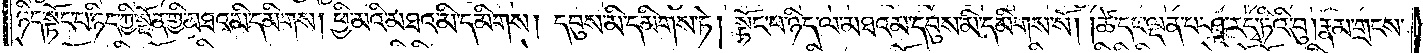ཉིད་སྟོང་པ་ཉིད་ཀྱི་སྔོན་གྱི་མཐའ་མི་དམིགས། ཕྱི་མའི་མཐའ་མི་དམིགས། དབུས་མི་དམིགས་ཏེ། སྟོང་པ་ཉིད་ལ་མཐའམ་དབུས་མི་དམིགས་སོ། །ཚེ་དང་ལྡན་པ་ཤཱ་ར་དྭ་ཏིའི་བུ། རྣམ་གྲངས་
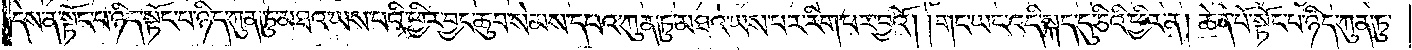དེས་ན་སྟོང་པ་ཉིད་སྟོང་པ་ཉིད་ཀུན་ཏུ་མཐའ་ཡས་པའི་ཕྱིར་བྱང་ཆུབ་སེམས་དཔའ་ཀུན་ཏུ་མཐའ་ཡས་པར་རིག་པར་བྱའོ། །གང་ཡང་འདི་སྐད་དུ་ཅིའི་ཕྱིར་ན། ཆེན་པོ་སྟོང་པ་ཉིད་ཀུན་ཏུ་
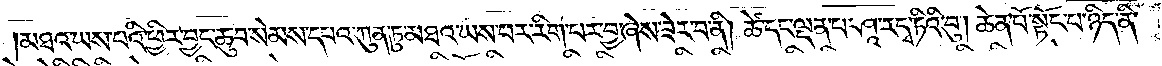མཐའ་ཡས་པའི་ཕྱིར་བྱང་ཆུབ་སེམས་དཔའ་ཀུན་ཏུ་མཐའ་ཡས་པར་རིག་པར་བྱ་ཞེས་ཟེར་བ་ནི། ཚེ་དང་ལྡན་པ་ཤཱ་ར་དྭ་ཏིའི་བུ། ཆེན་པོ་སྟོང་པ་ཉིད་ནི་
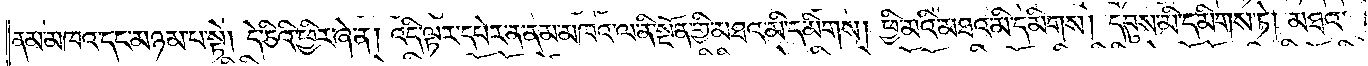ནམ་མཁའ་དང་མཉམ་པ་སྟེ། དེ་ཅིའི་ཕྱིར་ཞེ་ན། འདི་ལྟར་དཔེར་ན་ནམ་མཁའ་ལ་ནི་སྔོན་གྱི་མཐའ་མི་དམིགས། ཕྱི་མའི་མཐའ་མི་དམིགས། དབུས་མི་དམིགས་ཏེ། མཐའ་
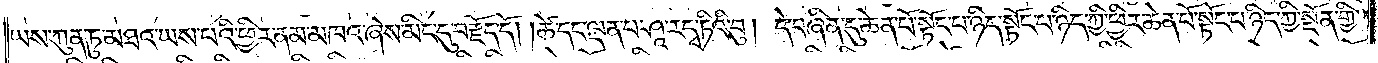ཡས་ཀུན་ཏུ་མཐའ་ཡས་པའི་ཕྱིར་ནམ་མཁའ་ཞེས་མིང་དུ་བརྗོད་དོ། །ཚེ་དང་ལྡན་པ་ཤཱ་ར་དྭ་ཏིའི་བུ༎ དེ་བཞིན་དུ་ཆེན་པོ་སྟོང་པ་ཉིད་ཀྱི་ཕྱིར་ཆེན་པོ་སྟོང་པ་ཉིད་ཀྱི་སྔོན་གྱི་
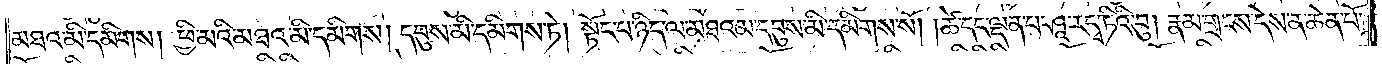མཐའ་མི་དམིགས། ཕྱི་མའི་མཐའ་མི་དམིགས། དབུས་མི་དམིགས་ཏེ། སྟོང་པ་ཉིད་ལ་མཐའམ་དབུས་མི་དམིགས་སོ། །ཚེ་དང་ལྡན་པ་ཤཱ་ར་དྭ་ཏིའི་བུ། རྣམ་གྲངས་དེས་ན་ཆེན་པོ་
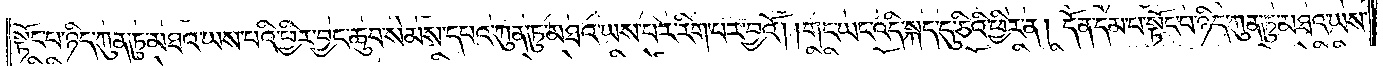སྟོང་པ་ཉིད་ཀུན་ཏུ་མཐའ་ཡས་པའི་ཕྱིར་བྱང་ཆུབ་སེམས་དཔའ་ཀུན་ཏུ་མཐའ་ཡས་པར་རིག་པར་བྱའོ། །གང་ཡང་འདི་སྐད་དུ་ཅིའི་ཕྱིར་ན། དོན་དམ་པ་སྟོང་པ་ཉིད་ཀུན་ཏུ་མཐའ་ཡས་
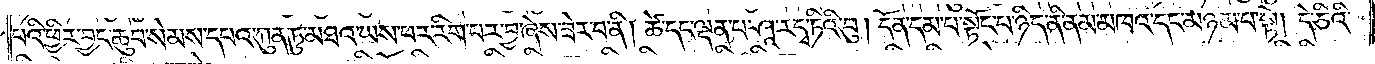པའི་ཕྱིར་བྱང་ཆུབ་སེམས་དཔའ་ཀུན་ཏུ་མཐའ་ཡས་པར་རིག་པར་བྱ་ཞེས་ཟེར་བ་ནི། ཚེ་དང་ལྡན་པ་ཤཱ་ར་དྭ་ཏིའི་བུ། དོན་དམ་པ་སྟོང་པ་ཉིད་ནི་ནམ་མཁའ་དང་མཉམ་པ་སྟེ། དེ་ཅིའི་
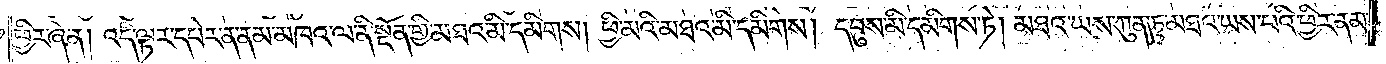ཕྱིར་ཞེ་ན། འདི་ལྟར་དཔེར་ན་ནམ་མཁའ་ལ་ནི་སྔོན་གྱི་མཐའ་མི་དམིགས། ཕྱི་མའི་མཐའ་མི་དམིགས། དབུས་མི་དམིགས་ཏེ། མཐའ་ཡས་ཀུན་ཏུ་མཐའ་ཡས་པའི་ཕྱིར་ནམ་
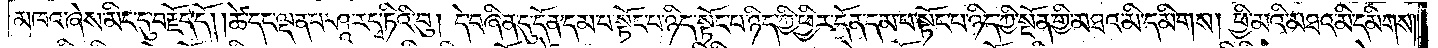མཁའ་ཞེས་མིང་དུ་བརྗོད་དོ། །ཚེ་དང་ལྡན་པ་ཤཱ་ར་དྭ་ཏིའི་བུ། དེ་བཞིན་དུ་དོན་དམ་པ་སྟོང་པ་ཉིད་ཀྱི་ཕྱིར་དོན་དམ་པ་སྟོང་པ་ཉིད་ཀྱི་སྔོན་གྱི་མཐའ་མི་དམིགས། ཕྱི་མའི་མཐའ་མི་དམིགས།
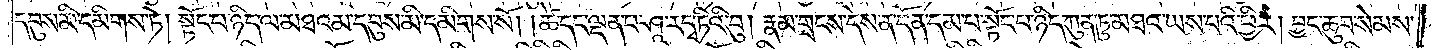དབུས་མི་དམིགས་ཏེ། སྟོང་པ་ཉིད་ལ་མཐའམ་དབུས་མི་དམིགས་སོ། །ཚེ་དང་ལྡན་པ་ཤཱ་ར་དྭ་ཏིའི་བུ། རྣམ་གྲངས་དེས་ན་དོན་དམ་པ་སྟོང་པ་ཉིད་ཀུན་ཏུ་མཐའ་ཡས་པའི་ཕྱིར། བྱང་ཆུབ་སེམས་
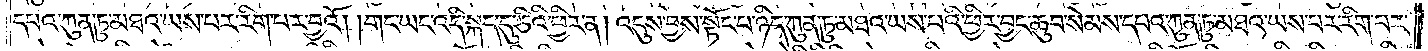དཔའ་ཀུན་ཏུ་མཐའ་ཡས་པར་རིག་པར་བྱའོ། །གང་ཡང་འདི་སྐད་དུ་ཅིའི་ཕྱིར་ན། འདུས་བྱས་སྟོང་པ་ཉིད་ཀུན་ཏུ་མཐའ་ཡས་པའི་ཕྱིར་བྱང་ཆུབ་སེམས་དཔའ་ཀུན་ཏུ་མཐའ་ཡས་པར་རིག་པར་
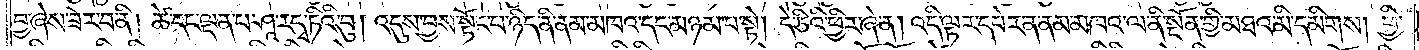བྱ་ཞེས་ཟེར་བ་ནི། །ཚེ་དང་ལྡན་པ་ཤཱ་ར་དྭ་ཏིའི་བུ། འདུས་བྱས་སྟོང་པ་ཉིད་ནི་ནམ་མཁའ་དང་མཉམ་པ་སྟེ། དེ་ཅིའི་ཕྱིར་ཞེ་ན། འདི་ལྟར་དཔེར་ན་ནམ་མཁའ་ལ་ནི་སྔོན་གྱི་མཐའ་མི་དམིགས། ཕྱི་
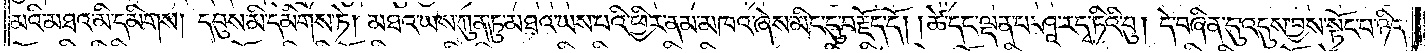མའི་མཐའ་མི་དམིགས། དབུས་མི་དམིགས་ཏེ། མཐའ་ཡས་ཀུན་ཏུ་མཐའ་ཡས་པའི་ཕྱིར་ནམ་མཁའ་ཞེས་མིང་དུ་བརྗོད་དོ། །ཚེ་དང་ལྡན་པ་ཤཱ་ར་དྭ་ཏིའི་བུ། དེ་བཞིན་དུ་འདུས་བྱས་སྟོང་པ་ཉིད་
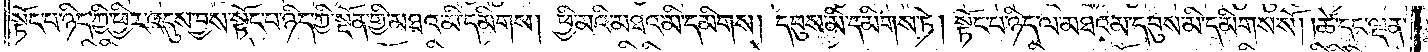སྟོང་པ་ཉིད་ཀྱི་ཕྱིར་འདུས་བྱས་སྟོང་པ་ཉིད་ཀྱི་སྔོན་གྱི་མཐའ་མི་དམིགས། ཕྱི་མའི་མཐའ་མི་དམིགས། དབུས་མི་དམིགས་ཏེ། སྟོང་པ་ཉིད་ལ་མཐའམ་དབུས་མི་དམིགས་སོ། །ཚེ་དང་ལྡན་
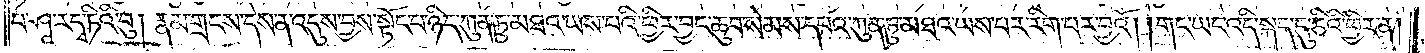པ་ཤཱ་ར་དྭ་ཏིའི་བུ། རྣམ་གྲངས་དེས་ན་འདུས་བྱས་སྟོང་པ་ཉིད་ཀུན་ཏུ་མཐའ་ཡས་པའི་ཕྱིར་བྱང་ཆུབ་སེམས་དཔའ་ཀུན་ཏུ་མཐའ་ཡས་པར་རིག་པར་བྱའོ། །གང་ཡང་འདི་སྐད་དུ་ཅིའི་ཕྱིར་ན།
